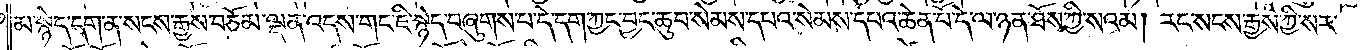མ་སྙེད་དག་ན་སངས་རྒྱས་བཅོམ་ལྡན་འདས་གང་ཇི་སྙེད་བཞུགས་པ་དེ་དག་ཀྱང་བྱང་ཆུབ་སེམས་དཔའ་སེམས་དཔའ་ཆེན་པོ་དེ་ལ་ཉན་ཐོས་ཀྱི་སའམ། རང་སངས་རྒྱས་ཀྱི་སར་
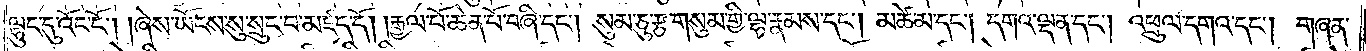ལྷུང་དུ་འོང་ངོ༌། །ཞེས་ཡོངས་སུ་སྲུང་བ་མཛད་དོ། །རྒྱལ་པོ་ཆེན་པོ་བཞི་དང༌། སུམ་ཅུ་རྩ་གསུམ་གྱི་ལྷ་རྣམས་དང༌། མཚེ་མ་དང༌། དགའ་ལྡན་དང༌། འཕྲུལ་དགའ་དང༌། གཞན་
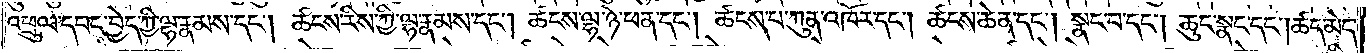འཕྲུལ་དབང་བྱེད་ཀྱི་ལྷ་རྣམས་དང༌། ཚངས་རིས་ཀྱི་ལྷ་རྣམས་དང༌། ཚངས་ལྷ་ཉེ་ཕན་དང༌། ཚངས་པ་ཀུན་འཁོར་དང༌། ཚངས་ཆེན་དང༌། སྣང་བ་དང༌། ཆུང་སྣང་དང༌། ཚད་མེད་
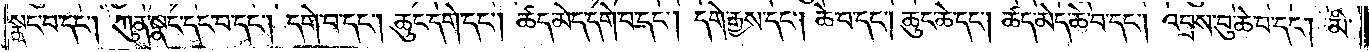སྣང་བ་དང༌། ཀུན་སྣང་དང་བ་དང༌། དགེ་བ་དང༌། ཆུང་དགེ་དང༌། ཚད་མེད་དགེ་བ་དང༌། དགེ་རྒྱས་དང༌། ཆེ་བ་དང༌། ཆུང་ཆེ་དང༌། ཚད་མེད་ཆེ་བ་དང༌། འབྲས་བུ་ཆེ་བ་དང༌། མི་
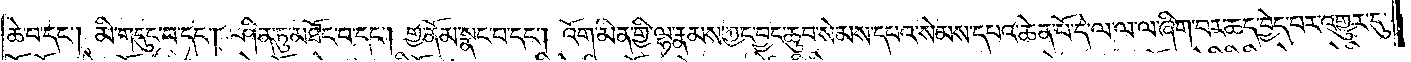ཆེ་བ་དང༌། མི་གདུང་བ་དང༌། ཤིན་ཏུ་མཐོང་བ་དང༌། གྱ་ནོམ་སྣང་བ་དང༌། འོག་མིན་གྱི་ལྷ་རྣམས་ཀྱང་བྱང་ཆུབ་སེམས་དཔའ་སེམས་དཔའ་ཆེན་པོ་དེ་ལ་ལ་ལ་ཞིག་བར་ཆད་བྱེད་པར་འགྱུར་དུ་
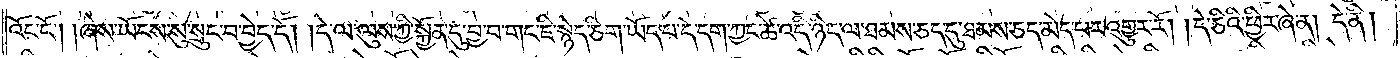འོང་ངོ༌། །ཞེས་ཡོངས་སུ་སྲུང་བ་བྱེད་དོ། །དེ་ལ་ལུས་ཀྱི་སྐྱོན་དུ་བྱ་བ་གང་ཇི་སྙེད་ཅིག་ཡོད་པ་དེ་དག་ཀྱང་ཚེ་འདི་ཉིད་ལ་ཐམས་ཅད་དུ་ཐམས་ཅད་མེད་པར་འགྱུར་རོ། །དེ་ཅིའི་ཕྱིར་ཞེ་ན། དེ་ནི།
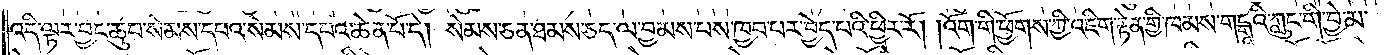འདི་ལྟར་བྱང་ཆུབ་སེམས་དཔའ་སེམས་དཔའ་ཆེན་པོ་དེ། སེམས་ཅན་ཐམས་ཅད་ལ་བྱམས་པས་ཁྱབ་པར་བྱེད་པའི་ཕྱིར་རོ། །འོག་གི་ཕྱོགས་ཀྱི་འཇིག་རྟེན་གྱི་ཁམས་གངྒཱའི་ཀླུང་གི་བྱེ་མ་
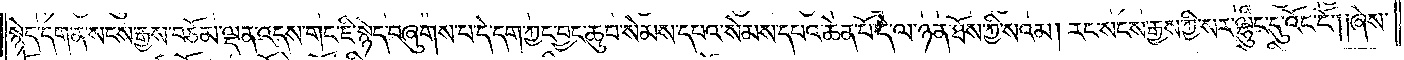སྙེད་དག་ན་སངས་རྒྱས་བཅོམ་ལྡན་འདས་གང་ཇི་སྙེད་བཞུགས་པ་དེ་དག་ཀྱང་བྱང་ཆུབ་སེམས་དཔའ་སེམས་དཔའ་ཆེན་པོ་དེ་ལ་ཉན་ཐོས་ཀྱི་སའམ། རང་སངས་རྒྱས་ཀྱི་སར་ལྷུང་དུ་འོང་ངོ༌། །ཞེས་
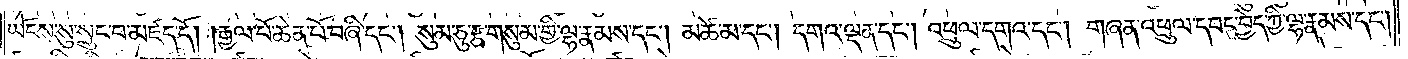ཡོངས་སུ་སྲུང་བ་མཛད་དོ། །རྒྱལ་པོ་ཆེན་པོ་བཞི་དང༌། སུམ་ཅུ་རྩ་གསུམ་གྱི་ལྷ་རྣམས་དང༌། མཚེ་མ་དང༌། དགའ་ལྡན་དང༌། འཕྲུལ་དགའ་དང༌། གཞན་འཕྲུལ་དབང་བྱེད་ཀྱི་ལྷ་རྣམས་དང༌།
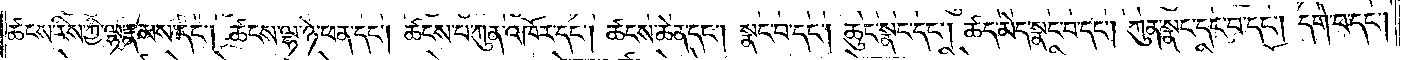ཚངས་རིས་ཀྱི་ལྷ་རྣམས་དང༌། ཚངས་ལྷ་ཉེ་ཕན་དང༌། ཚངས་པ་ཀུན་འཁོར་དང༌། ཚངས་ཆེན་དང༌། སྣང་བ་དང༌། ཆུང་སྣང་དང༌། ཚད་མེད་སྣང་བ་དང༌། ཀུན་སྣང་དང་བ་དང༌། དགེ་བ་དང༌།
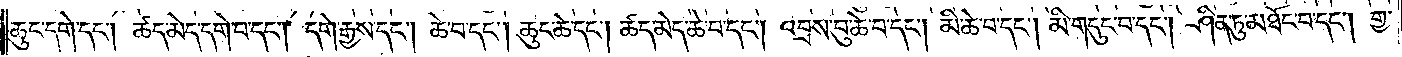ཆུང་དགེ་དང༌། ཚད་མེད་དགེ་བ་དང༌། དགེ་རྒྱས་དང༌། ཆེ་བ་དང༌། ཆུང་ཆེ་དང༌། ཚད་མེད་ཆེ་བ་དང༌། འབྲས་བུ་ཆེ་བ་དང༌། མི་ཆེ་བ་དང༌། མི་གདུང་བ་དང༌། ཤིན་ཏུ་མཐོང་བ་དང༌། གྱ་
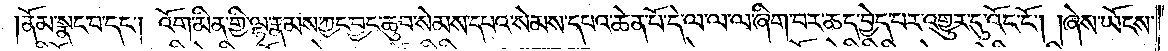ནོམ་སྣང་བ་དང༌། འོག་མིན་གྱི་ལྷ་རྣམས་ཀྱང་བྱང་ཆུབ་སེམས་དཔའ་སེམས་དཔའ་ཆེན་པོ་དེ་ལ་ལ་ལ་ཞིག་བར་ཆད་བྱེད་པར་འགྱུར་དུ་འོང་ངོ༌། །ཞེས་ཡོངས་
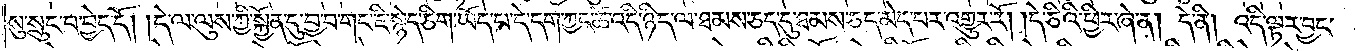སུ་སྲུང་བ་བྱེད་དོ། །དེ་ལ་ལུས་ཀྱི་སྐྱོན་དུ་བྱ་བ་གང་ཇི་སྙེད་ཅིག་ཡོད་པ་དེ་དག་ཀྱང་ཚེ་འདི་ཉིད་ལ་ཐམས་ཅད་དུ་ཐམས་ཅད་མེད་པར་འགྱུར་རོ། །དེ་ཅིའི་ཕྱིར་ཞེ་ན། དེ་ནི། འདི་ལྟར་བྱང་
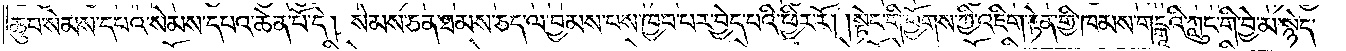ཆུབ་སེམས་དཔའ་སེམས་དཔའ་ཆེན་པོ་དེ། སེམས་ཅན་ཐམས་ཅད་ལ་བྱམས་པས་ཁྱབ་པར་བྱེད་པའི་ཕྱིར་རོ། །སྟེང་གི་ཕྱོགས་ཀྱི་འཇིག་རྟེན་གྱི་ཁམས་གངྒཱའི་ཀླུང་གི་བྱེ་མ་སྙེད་
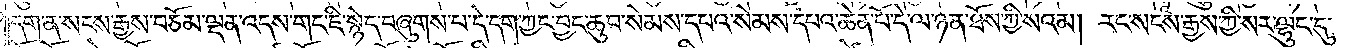དག་ན་སངས་རྒྱས་བཅོམ་ལྡན་འདས་གང་ཇི་སྙེད་བཞུགས་པ་དེ་དག་ཀྱང་བྱང་ཆུབ་སེམས་དཔའ་སེམས་དཔའ་ཆེན་པོ་དེ་ལ་ཉན་ཐོས་ཀྱི་སའམ། རང་སངས་རྒྱས་ཀྱི་སར་ལྷུང་དུ་
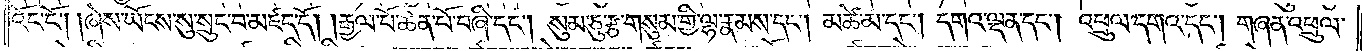འོང་ངོ༌། །ཞེས་ཡོངས་སུ་སྲུང་བ་མཛད་དོ། །རྒྱལ་པོ་ཆེན་པོ་བཞི་དང༌། སུམ་ཅུ་རྩ་གསུམ་གྱི་ལྷ་རྣམས་དང༌། མཚེ་མ་དང༌། དགའ་ལྡན་དང༌། འཕྲུལ་དགའ་དང༌། གཞན་འཕྲུལ་
